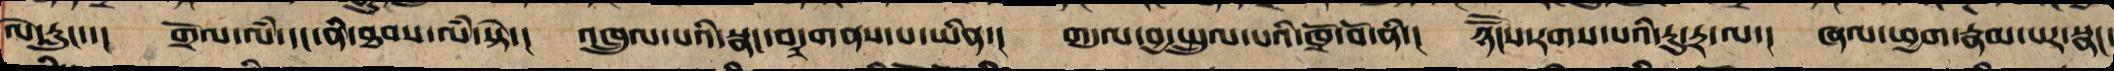ལེ་རླུང་་། གྲོལ་ལཾ་དང་ནི་ཐབས་ལཾ་སྟེ་། འཁྲུལ་པའི་སྣང་བར་གནས་པ་ཡིན་། གདུལ་བྱ་སྤྲུལ་པའི་ཁྲོ་བོ་ན། ཉོངོས་རགས་པའི་རུ་དྲ་ལ་། ཞལ་ཕྱག་རྣམ་པར་སྣང་
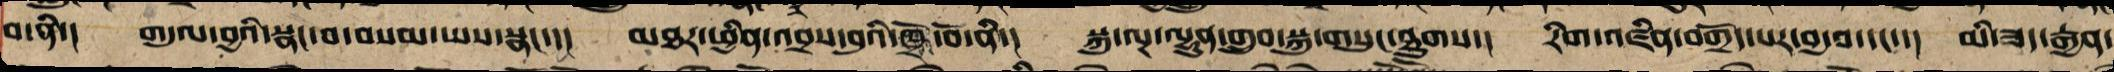བ་ནི་། གདུལ་བྱའི་སྣང་བ་བསམ་ཡས་སྣང་། མཐར་ཕྱིན་འབྲས་བུའི་ཁྲོ་བོ་ནི་། སྐུ་ལྔ་ལྷུན་གྲུབ་སྐུ་གསུང་ཐུགས་། རིག་འཛིན་བགྲོད་པར་བྱ་བ་དང་་། མི་ཟད་རྒྱན་
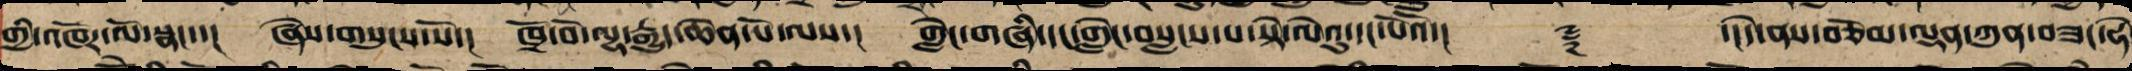གྱི་འཁོར་ལོར་སྣང་་། ཞེས་གསུངས་སོ་། ཁྲོ་བོ་ལྷ་རྒྱུད་ཆེན་པོ་ལས་། གླེང་གཞི་དང་གླེང་བསླང་བའི་ལེའུ་སྟེ་དང་པོའོ་།། ༈ ་།།དེ་ནས་བཅོམ་ལྡན་ཀུན་བཟང་ཧེ
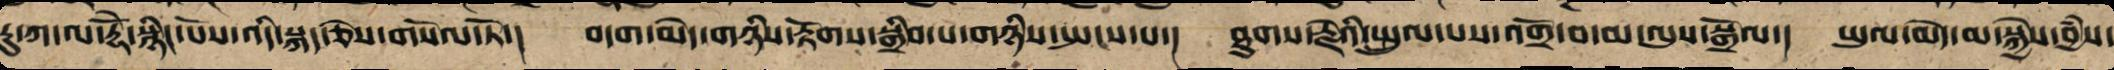རུ་ཀ་ལ་རྡོེ་སྙིང་པོས་འདི་སྐད་ཅེས་གསོལ་ཏོ་། བདག་མེད་གཉིས་རྟོགས་སྒྲིབ་པ་གཉིས་སྤངས་པ་། ཐུགས་རྗེའི་སྤྲུལ་པས་འགྲོ་བ་མ་ལུས་སྒྲོལ་། ཡུལ་མེད་མ་སྐྱེས་བྱཾས་
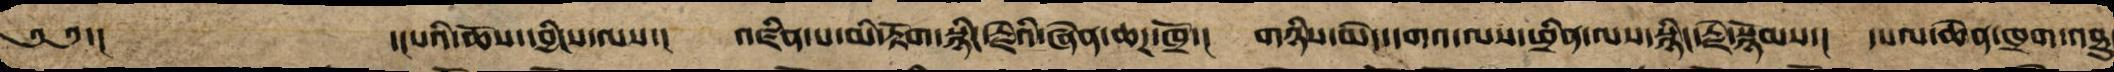༄༅་། ་།པའི་ཆོས་དབྱིངས་ལས་། འཛིན་པ་མི་རྟོག་སྙིང་རྗེའི་ཞེན་ཆགས་ཁྲོ་། གཉིས་མེད་དགའ་ལས་ཕྲིན་ལས་སྙིང་རྗེ་སྙོམས་། དཔལ་ཆེན་ཁྲག་འཐུང
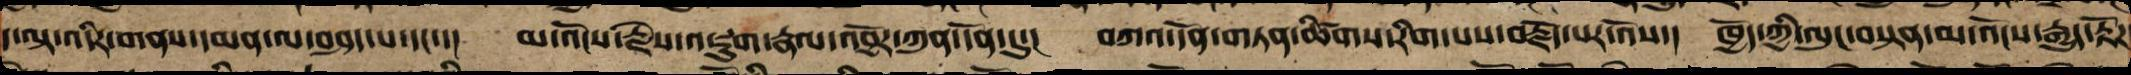ད་ལྟ་འདིར་གནས་དམན་ལ་བཤད་པ་དང་་། མ་འོངས་རྗེས་འཇུག་རྣལ་འབྱོར་ཀུན་དོན་དུ་། བཀའ་དོན་གཏན་ཚིགས་རིག་པས་བརྗོད་པར་འོས་། ཁྱོད་ཀྱིས་ལུང་བསྟན་མ་འོངས་རྒྱུད་རྟོཌ
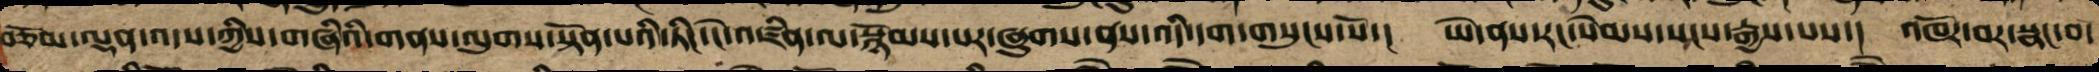བཅོམ་ལྡན་འདས་ཀྱིས་གཞིིིིིིིིིིིའི་གནས་ལུགས་སྟོན་པའི་ཏིང་ངེ་འཛིན་ལ་སྙོམས་པར་ཞུགས་ནས་འདི་དག་གསུངས་སོ་། ཡེ་ནས་རང་སེམས་སངས་རྒྱས་པས་། འཁོར་བར་སྣང་བ་
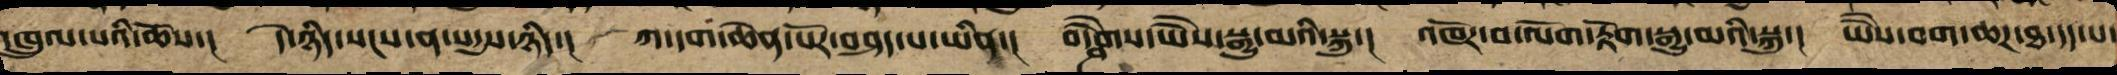འཁྲུལ་པའི་ཆོས་། དེ་ཉིད་སངས་ན་སདྱས་ཉིད་། ཀ་དག་ཆེན་པོར་བཤད་པ་ཡིན་། བདྴཻགས་ཡཻས་སྒྱུ་མའི་སྐུ་། འཁོར་བ་ལོག་རྟོག་སྒྱུ་མའི་སྐུ་། ཡཻས་བག་ཆཌ་ཐ་དད་པ་
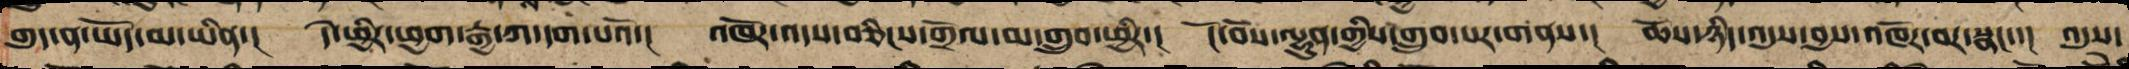གུད་ན་ཡོད་མ་ཡིན་། དེ་ཕྱིར་ཕྱག་རྒྱ་ཀ་དག་པའོ་། འཁོར་འདས་བཅིངས་གྲོལ་མ་གྲུབ་ཕྱིར་། ངོ་བོ་ལྷུན་གྱིས་གྲུབ་པར་གནས་། ཆོས་ཉིད་འདུས་བྱས་འཁོར་བར་སྣང་་། འདུས་
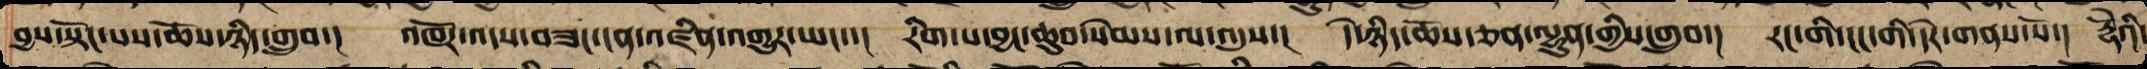བྱས་སྟོང་པས་ཆོས་ཉིད་གྲུབ་། འཁོར་འདས་བཟང་ངན་འཛིན་འགྱུར་ཡང་་། རིག་པ་བྱང་ཆུབ་སེམས་ལ་འདུས་། དེ་ཉིད་ཆོས་ཅན་ལྷུན་གྱིས་གྲུབ་། རང་གི་ངང་གིས་དེར་གནས་སོ་། རྡོེའི་
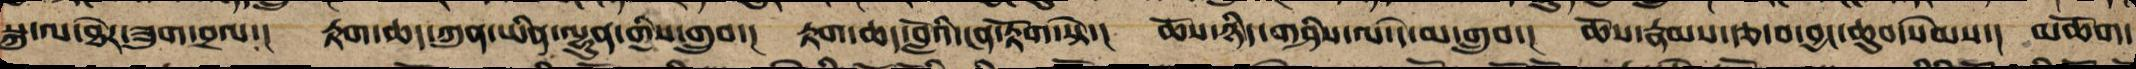སྐུ་ལ་ཐེར་ཟུག་བྲལ་། རྟག་ཆད་ཀུན་མིན་ལྷུན་གྱིས་གྲུབ་། རྟག་ཆད་བློའིངན་རྟོག་སྟེ་། ཆོས་ཉིད་གཤིས་ལ་དེ་མ་གྲུབ་། ཆོས་རྣམས་རྩ་བ་བྱང་ཆུབ་སེམས་། མཆོག་
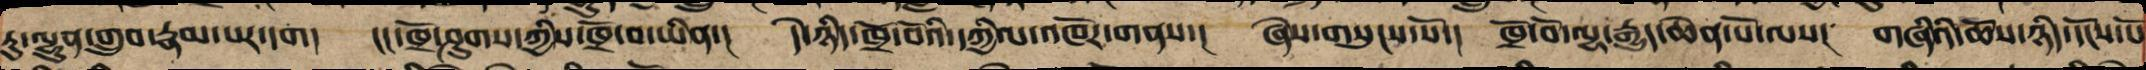ཏུ་ལྷུན་གྲུབ་རྣམ་པར་དག། ངང་ཁྲོ་ཤུགས་ཀྱིས་ཁྲོ་བ་ཡིན་། དེ་ཉིད་ཁྲོ་བོའི་དཀྱིལ་འཁོར་གནས་། ཞེས་གསུངས་སོ་། ཁྲོ་བོ་ལྷ་རྒྱུད་ཆེན་པོ་ལས། གཞིའི་ཆོས་ཉིད་དངོས་པོ
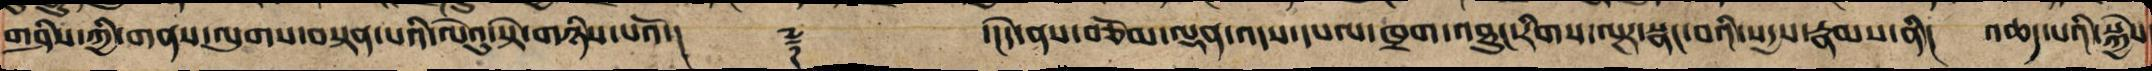གཤིས་ཀྱི་གནས་ལུགས་བསྟན་པའི་ལེའུ་སྟེ་གཉིས་པའོ་།། ༈ ་།།དེ་ནས་བཅོམ་ལྡན་འདས་དཔལ་ཁྲག་འཐུང་རིགས་ལྔར་སྣང་བའི་སདྱས་རྣམས་ནི། འཆད་པའི་སྐྱེས་
